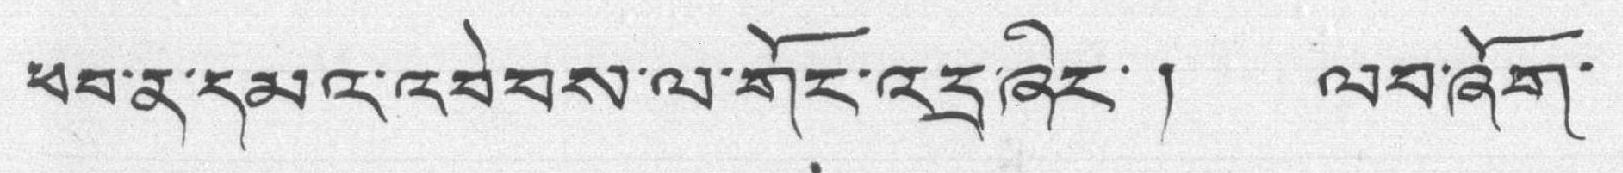ཕབ་ན་དམའ་འབེབས་ལ་གོང་འདྲ་ཞིང་ ། ལབ་ཞོག་
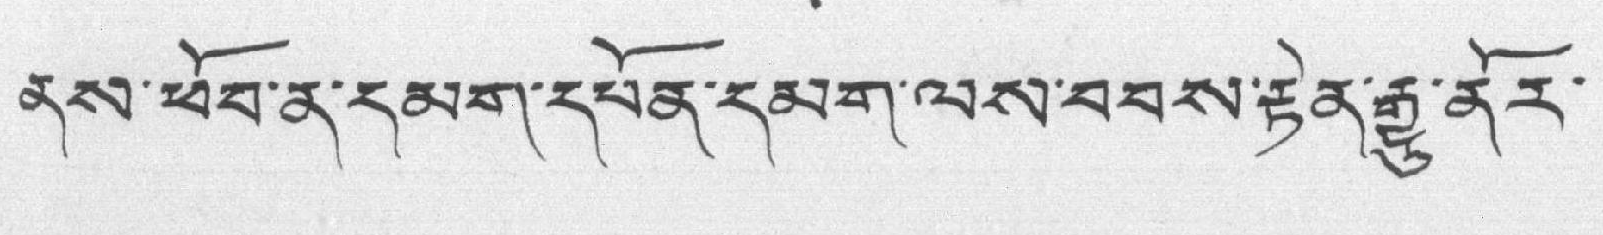ནས་ཕོབ་ན་དམག་དཔོན་དམག་ལས་བབས་རྟེན་རྒྱུ་ནོར་
